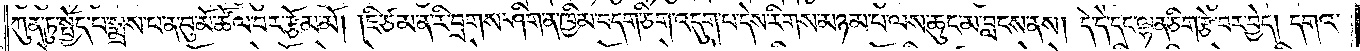ཀུན་ཏུ་སྤྱོད་པ་སྨྲས་པ་ན་བུ་མོ་ཚོལ་བར་རྩོམ་མོ། །ཇི་ཙམ་ན་རི་བྲགས་ཤིག་ན་ཁྱིམ་བདག་ཅིག་འདུག་པ་དེས་རིགས་མཉམ་པ་ལས་ཆུང་མ་བླངས་ནས། དེ་དེ་དང་ལྷན་ཅིག་རྩེ་བར་བྱེད། དགའ་
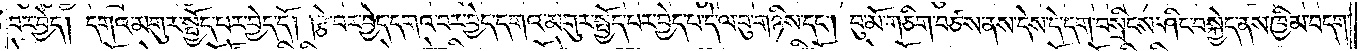བར་བྱེད། དགའ་མགུར་སྤྱོད་པར་བྱེད་དོ། །རྩེ་བར་བྱེད་དགའ་བར་བྱེད་དགའ་མགུར་སྤྱོད་པར་བྱེད་པ་དེ་ལ་བུ་གཉིས་དང༌། བུ་མོ་གཅིག་བཙས་ནས་དེས་དེ་དག་བསྲིངས་ཤིང་བསྐྱེད་ནས་ཁྱིམ་བདག་
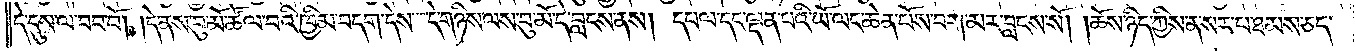དེ་དུས་ལ་བབ་བོ། །དེ་ནས་བུ་མོ་ཚོལ་བའི་ཁྱིམ་བདག་དེས་དེ་གཉིས་ལས་བུ་མོ་དེ་བླངས་ནས། དཔལ་དང་ལྡན་པའི་ཡོ་ལང་ཆེན་པོས་བག་མར་བླངས་སོ། །ཆོས་ཉིད་ཀྱིས་ན་སར་པ་ཐམས་ཅད་
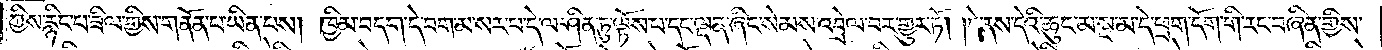ཀྱིས་རྙིང་པ་ཟིལ་གྱིས་གནོན་པ་ཡིན་པས། ཁྱིམ་བདག་དེ་བག་མ་སར་པ་དེ་ལ་ཤིན་ཏུ་ལྟོས་པ་དང་ལྡན་ཞིང་སེམས་འབྲེལ་བར་གྱུར་ཏོ། །དེ་ནས་དེའི་ཆུང་མ་སྔ་མ་དེ་ཕྲག་དོག་གི་རང་བཞིན་གྱིས་
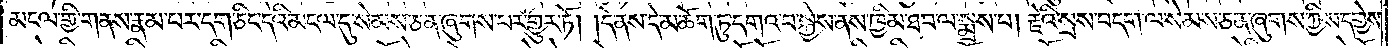མངལ་གྱི་གནས་རྣམ་པར་དག་ཅིང་དེའི་མངལ་དུ་སེམས་ཅན་ཞུགས་པར་གྱུར་ཏོ། །དེ་ནས་དེ་མཆོག་ཏུ་དགའ་བ་སྐྱེས་ནས་ཁྱིམ་ཐབ་ལ་སྨྲས་པ། རྗེའི་སྲས་བདག་ལ་སེམས་ཅན་ཞུགས་ཀྱིས་དགྱེས་
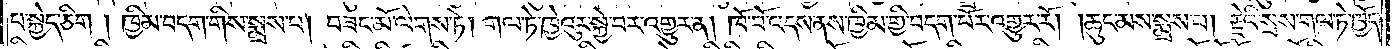པ་སྐྱེད་ཅིག །ཁྱིམ་བདག་གིས་སྨྲས་པ། བཟང་མོ་ལེགས་ཏེ། གལ་ཏེ་ཁྱེའུར་སྐྱེ་བར་འགྱུར་ན། ཁོ་བོ་འདས་ནས་ཁྱིམ་གྱི་བདག་པོར་འགྱུར་རོ། །ཆུང་མས་སྨྲས་པ། རྗེའི་སྲས་གལ་ཏེ་ཁྱོད་
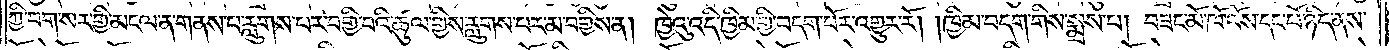ཀྱི་བག་སར་གྱི་མངལ་ན་གནས་པ་རླུགས་པར་བགྱི་བའི་ཚུལ་གྱིས་རླུགས་པར་མ་བགྱིས་ན། ཁྱེའུ་འདི་ཁྱིམ་གྱི་བདག་པོར་འགྱུར་རོ། །ཁྱིམ་བདག་གིས་སྨྲས་པ། བཟང་མོ་ཁོ་བོས་དང་པོ་ཉིད་ནས་
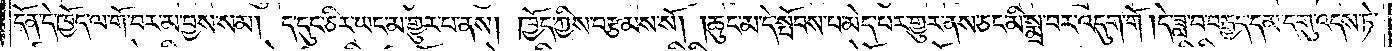དོན་དེ་ཁྱོད་ལ་གོ་བར་མ་བྱས་སམ། ད་དུང་ཅིར་ཡང་མ་གྱུར་པ་ནས། ཁྱོད་ཀྱིས་བརྩམས་སོ། །ཆུང་མ་དེ་སྤོབས་པ་མེད་པར་གྱུར་ནས་ཅང་མི་སྨྲ་བར་འདུག་གོ །དེ་ཟླ་བ་བརྒྱད་དམ་དགུ་འདས་ཏེ་
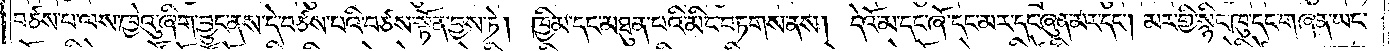བཙས་པ་ལས་ཁྱེའུ་ཞིག་བྱུང་ནས་དེ་བཙས་པའི་བཙས་སྟོན་བྱས་ཏེ། ཁྱིམ་དང་མཐུན་པའི་མིང་བཏགས་ནས། དེ་འོ་མ་དང་ཞོ་དང་མར་དང་ཞུན་མར་དང༌། མར་གྱི་སྙིང་ཁུ་དང་གཞན་ཡང་
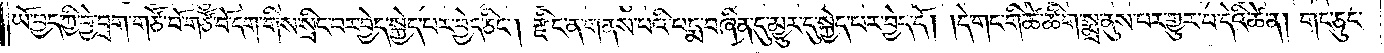ཡོ་བྱད་ཀྱི་བྱེ་བྲག་གཙོ་བོ་གཙོ་བོ་དག་གིས་སྲིང་བར་བྱེད་སྐྱེད་པར་བྱེད་ཅིང༌། རྫིང་ན་གནས་པའི་པདྨ་བཞིན་དུ་མྱུར་དུ་སྐྱེད་པར་བྱེད་དོ། །དེ་གང་གི་ཚེ་ཚིག་སྨྲ་ནུས་པར་གྱུར་པ་དེའི་ཚེ་ན། གང་ཅུང་
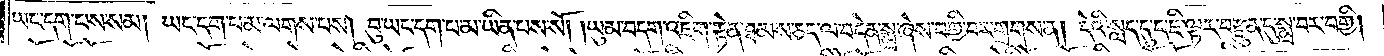ཡང་དག་པས་སམ། ཡང་དག་པ་མ་ལགས་པས། བུ་ཡང་དག་པ་མ་ཡིན་པས་སོ། །ཡུམ་བདག་འཇིག་རྟེན་ཐམས་ཅད་ལ་བདེན་སྨྲ་ཞེས་བགྱི་བར་གྲགས་ན། དེའི་སླད་དུ་ད་ཇི་ལྟར་བརྫུན་དུ་སྨྲ་བར་བགྱི།
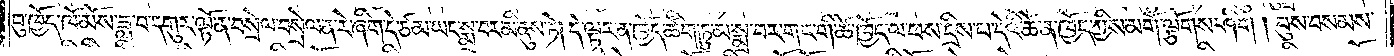བུ་ཁྱོད་ཁོ་མོས་ཟླ་བ་དགུར་ལྟོ་ན་བསྲེལ་བསྲེལ་ན་རེ་ཞིག་དེ་ཙམ་ཡང་སྨྲ་བར་མི་ནུས་ཏེ། དེ་ལྟར་ན་ཁྱོད་ཚིག་ཏུ་མ་སྨྲ་བར་གང་གི་ཚེ་ཁྱོད་ལ་ཕས་དྲིས་པ་དེའི་ཚེ་ན་ཁྱོད་ཀྱིས་མགོ་ལྕོགས་ཤིག །བུས་བསམས་
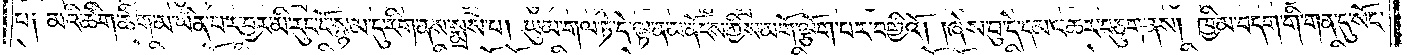པ༑ མའི་ཚིག་ཚིག་མ་ཡིན་པར་བྱར་མི་རུང་ངོ་སྙམ་དུ་རིག་ནས་སྨྲས་པ། ཡུམ་གལ་ཏེ་དེ་ལྟ་ན་མ་ནོངས་ཀྱིས་མགོ་ལྕོག་པར་བགྱིའོ། །ཞེས་བུ་དེ་དམ་འཆར་བཅུག་ནས། ཁྱིམ་བདག་གི་གན་དུ་སོང་
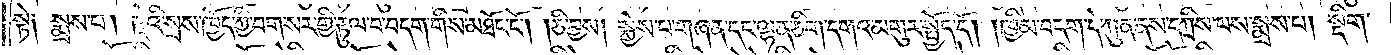སྟེ༑ སྨྲས་པ། རྗེའི་སྲས་ཁྱོད་ཀྱི་བག་སར་གྱི་རྟུལ་བ་བདག་གིས་མཐོང་ངོ༌། །ཅི་བྱས། སྐྱེས་པ་གཞན་དང་ལྷན་ཅིག་དགའ་མགུར་སྤྱོད་དོ། །ཁྱིམ་བདག་དེ་ཀུན་ནས་དཀྲིས་པས་སྨྲས་པ། སྡིག་
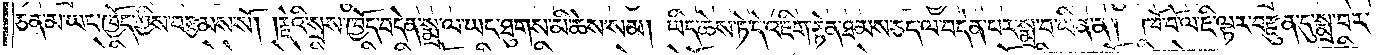ཅན་མ་ཡང་ཁྱོད་ཀྱིས་བརྩམས་སོ། །རྗེའི་སྲས་ཁྱོད་བདེན་སྨྲ་ལ་ཡང་ཐུགས་མི་ཆེས་སམ། ཡིད་ཆེས་ཏེ་དེ་འཇིག་རྟེན་ཐམས་ཅད་ལ་བདེན་པར་སྨྲ་བ་ཡིན་ན། ཁོ་བོ་ལ་ཇི་ལྟར་བརྫུན་དུ་སྨྲ་བར་
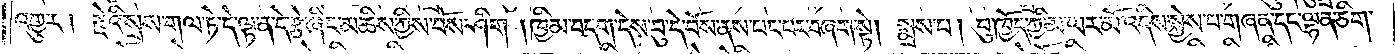འགྱུར། རྗེའི་སྲས་གལ་ཏེ་དེ་ལྟ་ན་དེ་རྩེ་ཞིང་མཆིས་ཀྱིས་བོས་ཤིག །ཁྱིམ་བདག་དེས་བུ་དེ་བོས་ནས་པང་པར་བཞག་སྟེ། སྨྲས་པ། བུ་ཁྱོད་ཀྱི་མ་ཡར་མོ་འདིས་སྐྱེས་པ་གཞན་དང་ལྷན་ཅིག་
